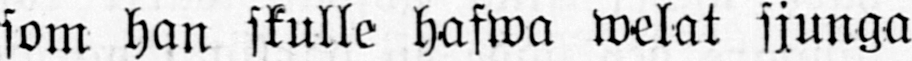som han skulle hafwa welat sjunga
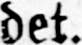det.
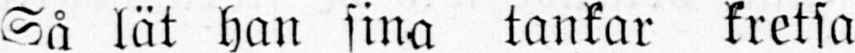Så lät han sina tankar kretsa
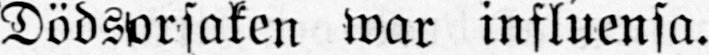Dödsorsaken war influensa.
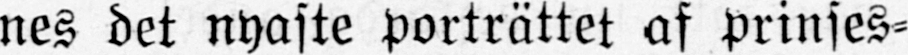nes det nyaste porträttet af prinses-
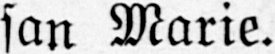san Marie.
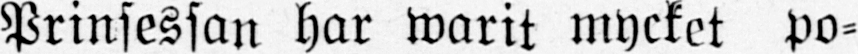Prinsessan har warit mycket po-
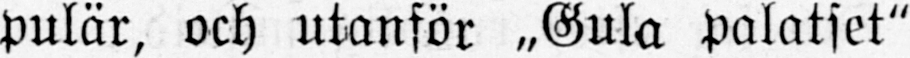pulär, och utanför „Gula palatset"
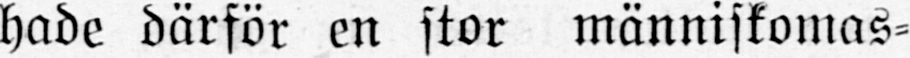hade därför en stor människomas-
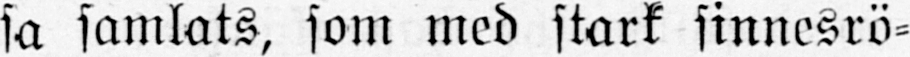sa samlats, som med stark sinnesrö-
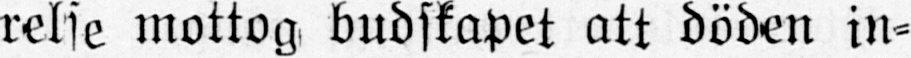relse mottog budskapet att döden in-
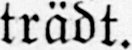trädt.
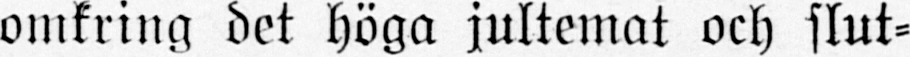omkring det höga jultemat och slut-
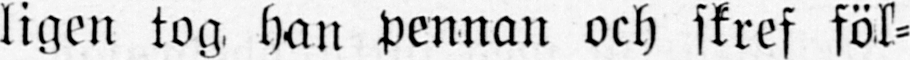ligen tog han pennan och skref föl-
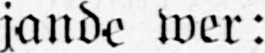jande wer:
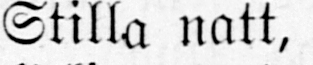Stilla natt,
